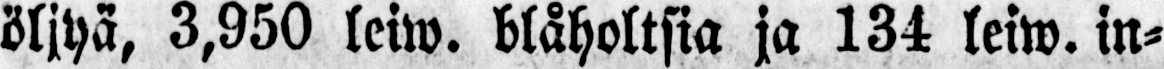öljyä, 3,950 leiw. blåholtsia ja 134 leiw. in-
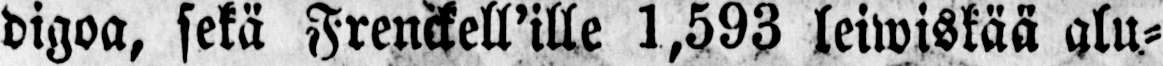digoa, sekä Frenckell'ille 1,593 leiwiskää alu-
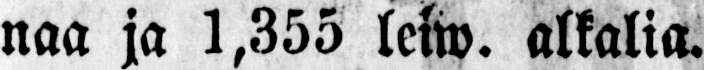naa ja 1,355 lelw. alkalia.
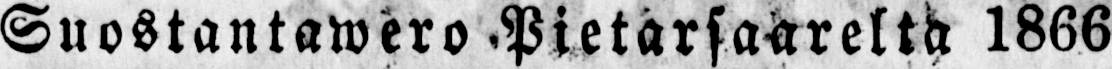Suostantawero Pietarsaarelta 1866
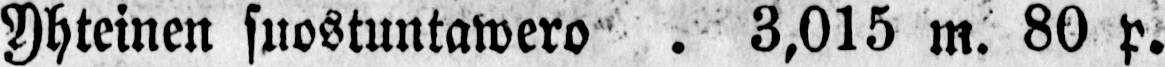Yhteinen suostuntawero . 3,015 m. 80 p.
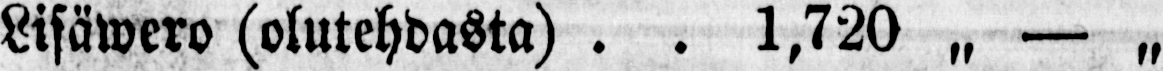Lisäwero (olutehdasta). . 1,720 „ — „
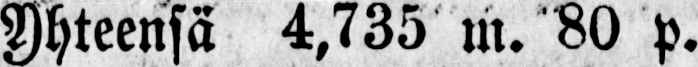Yhteensä 4,735 m. 80 p.
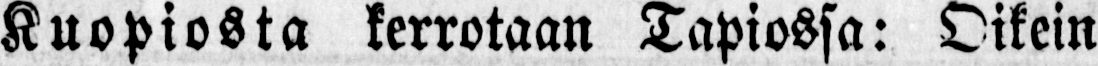Kuopiosta kerrotaan Tapiossa: Oikein
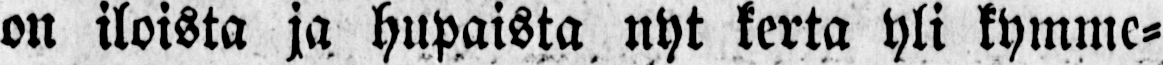on iloista ja hupaista nyt kerta yli kymme-
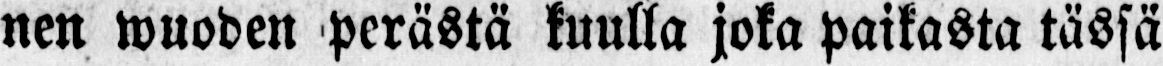nen wuoden perästä kuulla joka paikasta tässä
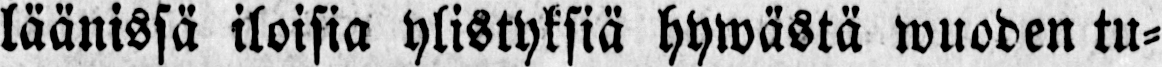läänissä iloisia ylistyksiä hywästä wuoden tu-
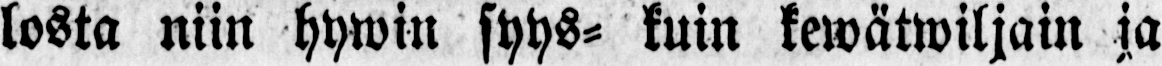losta niin hywin syys- kuin kewätwiljain ja
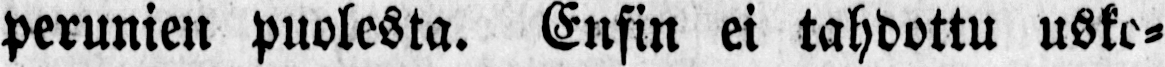perunien puolesta. Ensin ei tahdottu usko-
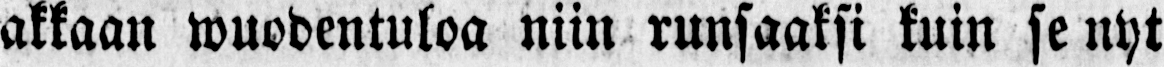akkaan wuodentuloa niin runsaaksi kuin se nyt
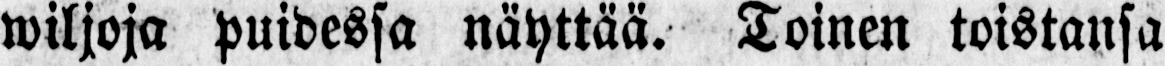wiljoja puidessa näyttää. Toinen toistansa
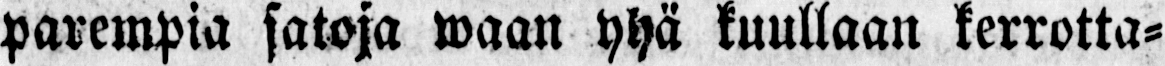parempia satoja waan yhä kuullaan kerrotta-
